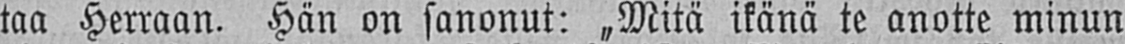taa Herraan. Hän on sanonut: „Mitä ikänä te anotte minun
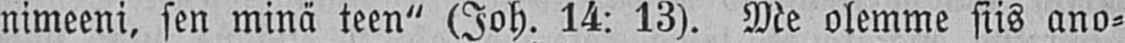nimeeni, sen minä teen" (Joh. 14: 13). Me olemme siis ano-
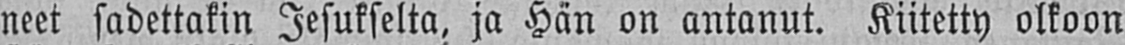neet sadettakin Jesukselta, ja Hän on antanut. Kiitetty olkoon
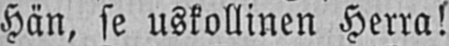Hän, se uskollinen Herra!
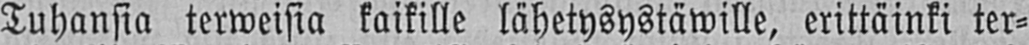Tuhansia terweisia kaikille lähetysystäwille, erittäinki ter-
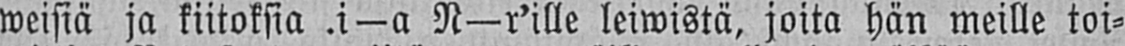weisiä ja kiitoksia i—a N—r'ille leiwistä, joita hän meille toi-
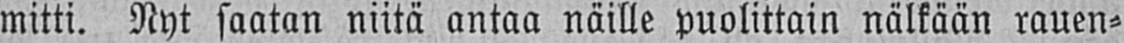mitti. Nyt saatan niitä antaa näille puolittain nälkään rauen-
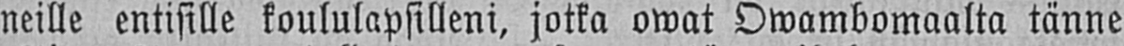neille entisille koululapsilleni, jotka owat Owambomaalta tänne
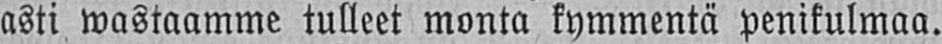asti wastaamme tulleet monta kymmentä penikulmaa.
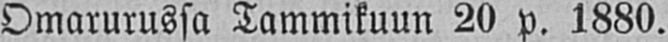Omarurussa Tammikuun 20 p. 1880.
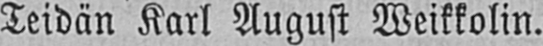Teidän Karl August Weikkolin.
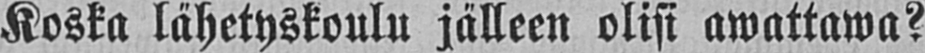Koska lähetyskoulu jälleen olisi awattawa?
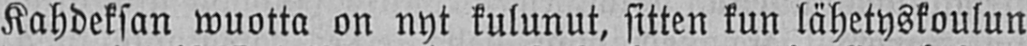Kahdeksan wuotta on nyt kulunut, sitten kun lähetyskoulun
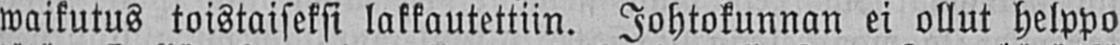waikutus toistaiseksi lakkautettiin. Johtokunnan ei ollut helppo
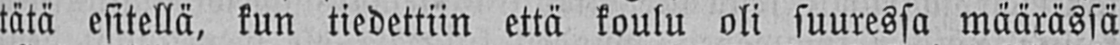tätä esitellä, kun tiedettiin että koulu oli suuressa määrässä
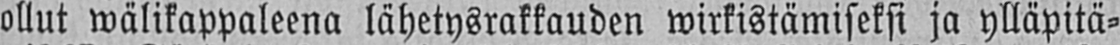ollut wälikappaleena lähetysrakkauden wirkistämiseksi ja ylläpitä-
